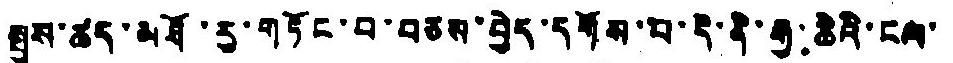སྤུས་ཚད་མཐོ་རུ་གཏོང་བ་བཅས་བྱེད་དགོས་པ་དེ་ནི་རྒྱ་ཆེའི་ངལ་
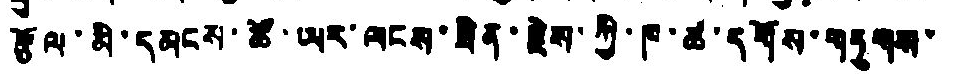རྩོལ་མི་དམངས་ཚོ་ཡར་ལངས་ཟིན་རྗེས་ཀྱི་ཁ་ཚ་དགོས་གཏུགས་
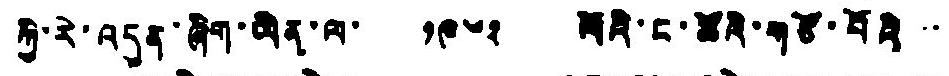ཀྱི་རེ་འདུན་ཞིག་ཡིན་ལ་ ༡༩༦༣ ལོའི་ང་ཚོའི་གཙོ་བོའི་་
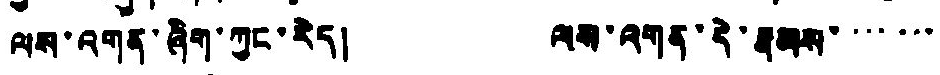ལས་འགན་ཞིག་ཀྱང་རེད། ལས་འགན་དེ་རྣམས་་་་་་་
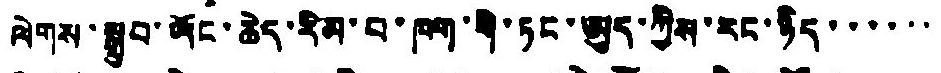ལེགས་སྒྲུབ་ཡོང་ཆེད་རིམ་པ་ཁག་གི་ཏང་ཨུད་ཀྱིས་རང་ཉིད་་་་་་
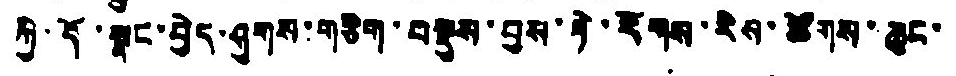ཀྱི་དོ་སྣང་བྱེད་ཤུགས་གཅིག་བསྡུས་བྱས་ཏེ་རོགས་རིས་ཚོགས་ཆུང་
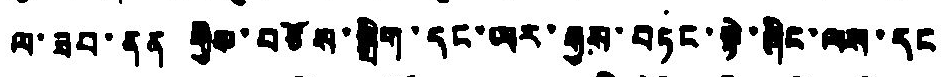ལ་ཟབ་ནན གྱིས་བཅོས་སྒྲིག་དང་ཡར་རྒྱས་བཏང་སྟེ་ཞིང་ལས་དང
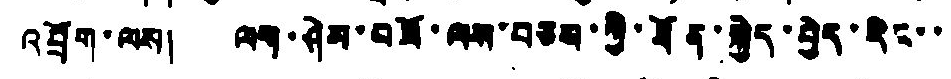འབྲོག་ལས། ལག་ཤེས་བཟོ་ལས་བཅས་ཀྱི་ཐོན་སྐྱེད་བྱེད་རིང་་
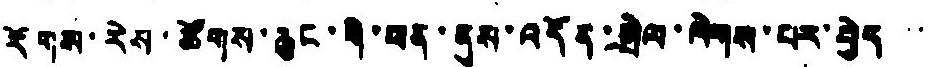རོགས་རེས་ཚོགས་ཆུང་གི་ཕན་ནུས་འདོན་སྤེལ་ལེགས་པར་བྱེད་་
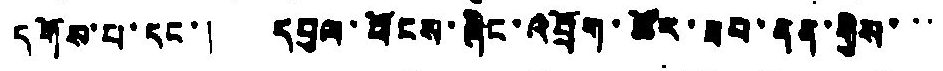དགོས་པ་དང་། དབུལ་ཕོངས་ཞིང་འབྲོག་ཚོར་ཟབ་ནན་གྱིས་་་
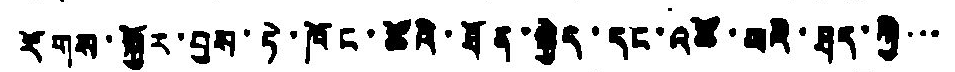རོགས་སྐྱོར་བྱས་ཏེ་ཁོང་ཚོའི་ཐོན་སྐྱེད་དང་འཚོ་བའི་ཐད་ཀྱི་་་
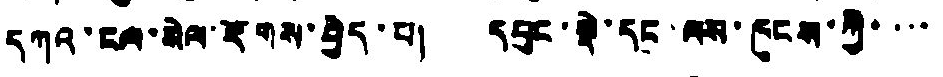དཀའ་ངལ་སེལ་རོགས་བྱེད་པ། དབུང་སྣེ་དང་ལས་ཁུངས་ཀྱི་་་་་
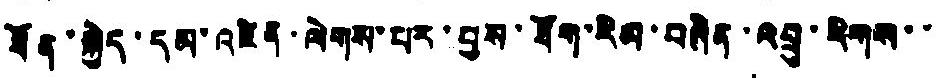ཐོན་སྐྱེད་དམ་འཛིན་ལེགས་པར་བྱས་ཐོག་རིམ་བཞིན་འབྲུ་རིགས་་
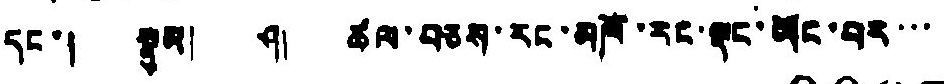དང་། སྣུམ། ཤ། ཚལ་བཅས་རང་མཁོ་རང་སྣང་ཡོང་བར་་་
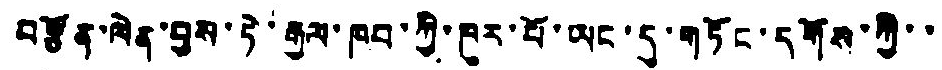བརྩོན་ལེན་བྱས་ཏེ་རྒྱལ་ཁབ་ཀྱི་ཁུར་པོ་ཡང་དུ་གཏོང་དགོས་ཀྱི་་
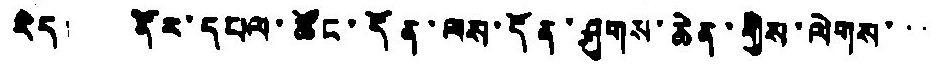རེད། ནོར་དཔལ་ཚོང་དོན་ལས་དོན་ཤུགས་ཆེན་གྱིས་ལེགས་་་
